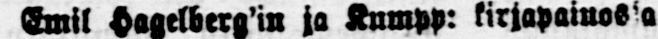Emil Hagelberg’in ja Kumpp: kirjapainossa
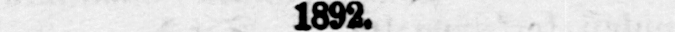1892.
